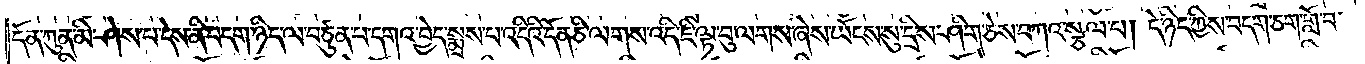དོན་ཀུན་མི་ཤེས་པ་དེས་ནི་བདག་ཉིད་ལ་བཙུན་པ་དགའ་བྱེད་སྨྲས་པ་འདིའི་དོན་ཅི་ལགས་འདི་ཇི་ལྟ་བུ་ལགས་ཞེས་ཡོངས་སུ་དྲིས་ཤིག་ཅེས་བཀའ་སྩལ་པ། དེ་ཉིད་ཀྱིས་བདག་ཅག་གློ་བ་
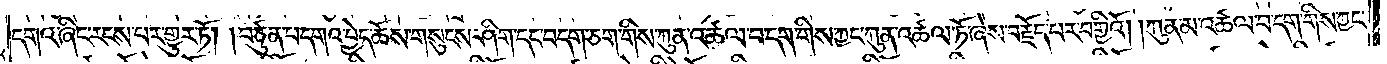དགའ་ཞིང་རངས་པར་གྱུར་ཏོ། །བཙུན་པ་དགའ་བྱེད་ཆོས་གསུངས་ཤིག་དང་བདག་ཅག་གིས་ཀུན་འཚལ་བདག་གིས་ཀྱང་ཀུན་འཚལ་ཏོ་ཞེས་བརྗོད་པར་བགྱིའོ། །ཀུན་མ་འཚལ་བ་དག་གིས་ཀྱང་
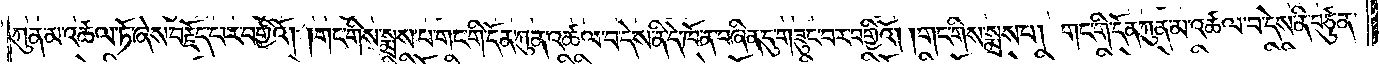ཀུན་མ་འཚལ་ཏོ་ཞས་བརྗོད་པར་བགྱིའོ། །གང་གིས་སྨྲས་པ་གང་གི་དོན་ཀུན་འཚལ་བ་དེས་ནི་དེ་ཁོ་ན་བཞིན་དུ་གཟུང་བར་བགྱིའོ། །གང་གིས་སྨྲས་པ། གང་གི་དོན་ཀུན་མ་འཚལ་བ་དེས་ནི་བཙུན་
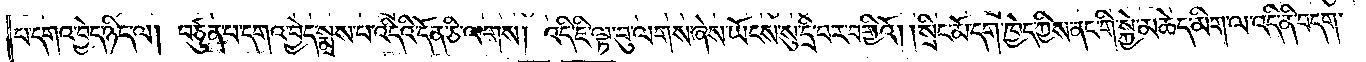པ་དགའ་བྱེད་ཉིད་ལ། བཙུན་པ་དགའ་བྱེད་སྨྲས་པ་འདིའི་དོན་ཅི་ལགས། འདི་ཇི་ལྟ་བུ་ལགས་ཞེས་ཡོངས་སུ་དྲི་བར་བགྱིའོ། །སྲིང་མོ་དག་ཁྱེད་ཀྱིས་ནང་གི་སྐྱེ་མཆེད་མིག་ལ་འདི་ནི་བདག་
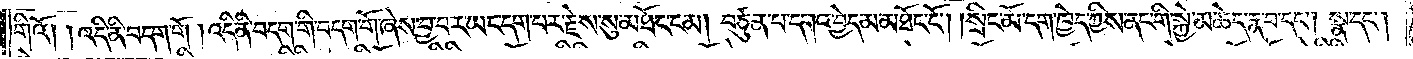གིའོ། །འདི་ནི་བདག་གོ །འདི་ནི་བདག་གི་བདག་གོ་ཞེས་བྱ་བར་ཡང་དག་པར་རྗེས་སུ་མཐོང་ངམ། བཙུན་པ་དགའ་བྱེད་མ་མཐོང་ངོ༌། །སྲིང་མོ་དག་ཁྱེད་ཀྱིས་ནང་གི་སྐྱེ་མཆེད་རྣ་བ་དང༌། སྣ་དང༌།
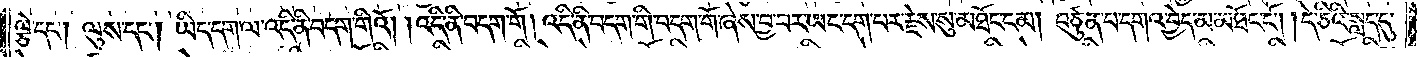ལྕེ་དང༌། ལུས་དང༌། ཡིད་དག་ལ་འདི་ནི་བདག་གིའོ། །འདི་ནི་བདག་གོ། འདི་ནི་བདག་གི་བདག་གོ་ཞེས་བྱ་བར་ཡང་དག་པར་རྗེས་སུ་མཐོང་ངམ། བཙུན་པ་དགའ་བྱེད་མ་མཐོང་ངོ༌། །དེ་ཅིའི་སླད་དུ་
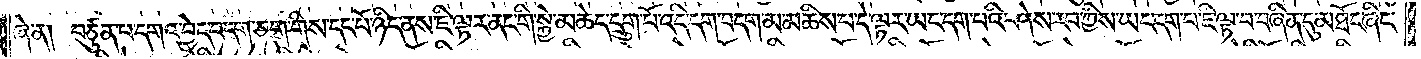ཞེ་ན། བཙུན་པ་དགའ་བྱེད་བདག་ཅག་གིས་དང་པོ་ཉིད་ནས་ཇི་ལྟར་ནང་གི་སྐྱེ་མཆེད་དྲུག་པོ་འདི་དག་བདག་མ་མཆིས་པ་དེ་ལྟར་ཡང་དག་པའི་ཤེས་རབ་ཀྱིས་ཡང་དག་པ་ཇི་ལྟ་བ་བཞིན་དུ་མཐོང་ཞིང་
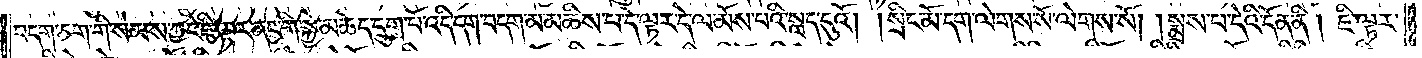བདག་ཅག་གི་སེམས་ཀྱང་ཇི་ལྟར་ནང་གི་སྐྱེ་མཆེད་དྲུག་པོ་འདི་དག་བདག་མ་མཆིས་པ་དེ་ལྟར་དེ་ལ་མོས་པའི་སླད་དུའོ། །སྲིང་མོ་དག་ལེགས་སོ་ལེགས་སོ། །སྨྲས་པ་དེའི་དོན་ནི། ཇི་ལྟར་
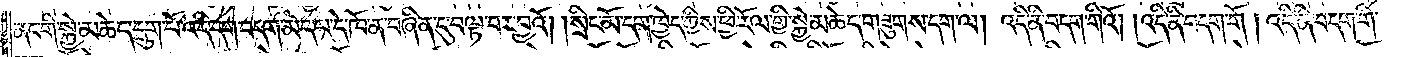ནང་གི་སྐྱེ་མཆེད་དྲུག་པོ་འདི་དག་བདག་མེད་པ་དེ་ཁོ་ན་བཞིན་དུ་བལྟ་བར་བྱའོ། །སྲིང་མོ་དག་ཁྱེད་ཀྱིས་ཕྱི་རོལ་གྱི་སྐྱེ་མཆེད་གཟུགས་དག་ལ། འདི་ནི་བདག་གིའོ། །འདི་ནི་བདག་གོ །འདི་ནི་བདག་གི་
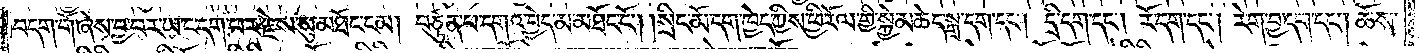བདག་གོ་ཞེས་བྱ་བར་ཡང་དག་པར་རྗེས་སུ་མཐོང་ངམ། བཙུན་པ་དགའ་བྱེད་མ་མཐོང་ངོ༌། །སྲིང་མོ་དག་ཁྱེད་ཀྱིས་ཕྱི་རོལ་གྱི་སྐྱེ་མཆེད་སྒྲ་དག་དང༌། དྲི་དག་དང༌། རོ་དག་དང༌། རེག་བྱ་དག་དང༌། ཆོས་
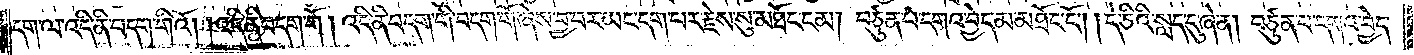དག་ལ་འདི་ནི་བདག་གིའོ། །འདི་ནི་བདག་གོ། །འདི་ནི་བདག་གི་བདག་གོ་ཞེས་བྱ་བར་ཡང་དག་པར་རྗེས་སུ་མཐོང་ངམ། བཙུན་པ་དགའ་བྱེད་མ་མཐོང་ངོ༌། །དེ་ཅིའི་སླད་དུ་ཞེ་ན། བཙུན་པ་དགའ་བྱེད་
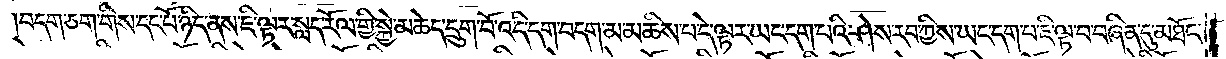བདག་ཅག་གིས་དང་པོ་ཉིད་ནས་ཇི་ལྟར་སླད་རོལ་གྱི་སྐྱེ་མཆེད་དྲུག་པོ་འདི་དག་བདག་མ་མཆིས་པ་དེ་ལྟར་ཡང་དག་པའི་ཤེས་རབ་ཀྱིས་ཡང་དག་པ་ཇི་ལྟ་བ་བཞིན་དུ་མཐོང་
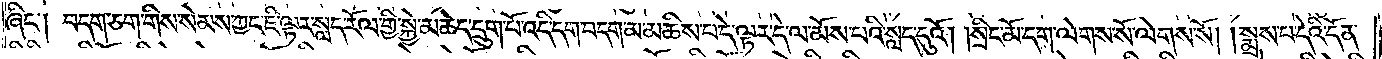ཞིང༌། བདག་ཅག་གིས་སེམས་ཀྱང་ཇི་ལྟར་སླད་རོལ་གྱི་སྐྱེ་མཆེད་དྲུག་པོ་འདི་དག་བདག་མ་མཆིས་པ་དེ་ལྟར་དེ་ལ་མོས་པའི་སླད་དུའོ། །སྲིང་མོ་དག་ལེགས་སོ་ལེགས་སོ། །སྨྲས་པ་དེའི་དོན་
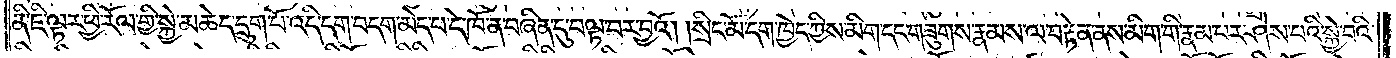ནི་ཇི་ལྟར་ཕྱི་རོལ་གྱི་སྐྱེ་མཆེད་དྲུག་པོ་འདི་དག་བདག་མེད་པ་དེ་ཁོ་ན་བཞིན་དུ་བལྟ་བར་བྱའོ། །སྲིང་མོ་དག་ཁྱེད་ཀྱིས་མིག་དང་གཟུགས་རྣམས་ལ་བརྟེན་ནས་མིག་གི་རྣམ་པར་ཤེས་པའི་སྐྱེ་བའི་
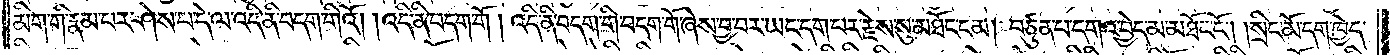མིག་གི་རྣམ་པར་ཤེས་པ་དེ་ལ་འདི་ནི་བདག་གིའོ། །འདི་ནི་བདག་གོ །འདི་ནི་བདག་གི་བདག་གོ་ཞེས་བྱ་བར་ཡང་དག་པར་རྗེས་སུ་མཐོང་ངམ། བཙུན་པ་དགའ་བྱེད་མ་མཐོང་ངོ༌། །སྲིང་མོ་དག་ཁྱེད་
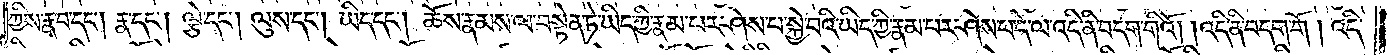ཀྱིས་རྣ་བ་དང༌། རྣ་དང༌། ལྕེ་དང༌། ལུས་དང༌། ཡིད་དང༌། ཆོས་རྣམས་ལ་བསྟེན་ཏེ་ཡིད་ཀྱི་རྣམ་པར་ཤེས་པ་སྐྱེ་བའི་ཡིད་ཀྱི་རྣམ་པར་ཤེས་པ་དེ་ལ་འདི་ནི་བདག་གིའོ། །འདི་ནི་བདག་གོ། འདི་
